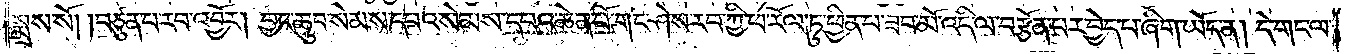སྨྲས་སོ། །བཙུན་པ་རབ་འབྱོར། བྱང་ཆུབ་སེམས་དཔའ་སེམས་དཔའ་ཆེན་པོ་གང་ཤེས་རབ་ཀྱི་ཕ་རོལ་ཏུ་ཕྱིན་པ་ཟབ་མོ་འདི་ལ་བརྩོན་པར་བྱེད་པ་ཞིག་ཡོད་ན། དེ་གང་ལ་
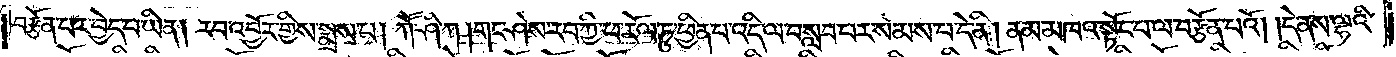བརྩོན་པར་བྱེད་པ་ཡིན། རབ་འབྱོར་གྱིས་སྨྲས་པ། ཀཽ་ཤི་ཀ། གང་ཤེས་རབ་ཀྱི་ཕ་རོལ་ཏུ་ཕྱིན་པ་འདི་ལ་བསླབ་པར་སེམས་པ་དེ་ནི། ནམ་མཁའ་སྟོང་པ་ལ་བརྩོན་པའོ། །དེ་ནས་ལྷའི་
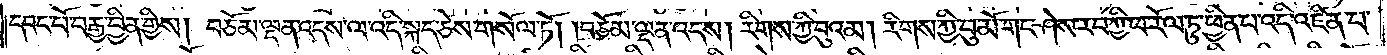དབང་པོ་བརྒྱ་བྱིན་གྱིས། བཅོམ་ལྡན་འདས་ལ་འདི་སྐད་ཅེས་གསོལ་ཏོ། །བཅོམ་ལྡན་འདས། རིགས་ཀྱི་བུའམ། རིགས་ཀྱི་བུ་མོ་གང་ཤེས་རབ་ཀྱི་ཕ་རོལ་ཏུ་ཕྱིན་པ་འདི་འཛིན་པ་
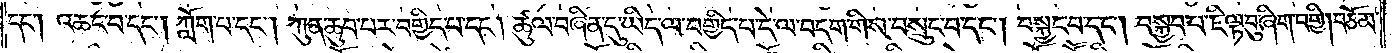དང༌། འཆང་བ་དང༌། ཀློག་པ་དང༌། ཀུན་ཆུབ་པར་བགྱིད་པ་དང༌། ཚུལ་བཞིན་དུ་ཡིད་ལ་བགྱིད་པ་དེ་ལ་བདག་གིས་བསྲུང་བ་དང༌། བསྐྱང་བ་དང༌། བསྐྱབ་པ་ཇི་ལྟ་བུ་ཞིག་བགྱི། བཅོམ་
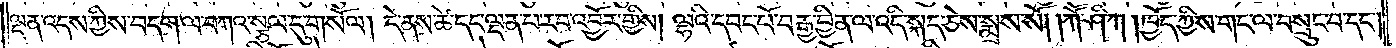ལྡན་འདས་ཀྱིས་བདག་ལ་བཀའ་སྩལ་དུ་གསོལ། དེ་ནས་ཚེ་དང་ལྡན་པ་རབ་འབྱོར་གྱིས། ལྷའི་དབང་པོ་བརྒྱ་བྱིན་ལ་འདི་སྐད་ཅེས་སྨྲས་སོ། །ཀཽ་ཤི་ཀ། ཁྱོད་ཀྱིས་གང་ལ་བསྲུང་བ་དང༌།
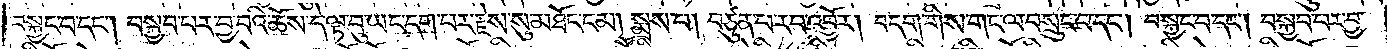བསྐྱང་བ་དང༌། བསྐྱབ་པར་བྱ་བའི་ཆོས་དེ་ལྟ་བུ་ཡང་དག་པར་རྗེས་སུ་མཐོང་ངམ། སྨྲས་པ། བཙུན་པ་རབ་འབྱོར། བདག་གིས་གང་ལ་བསྲུང་བ་དང༌། བསྐྱང་བ་དང༌། བསྐྱབ་པར་བྱ་
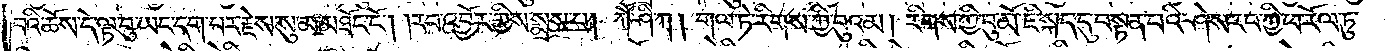བའི་ཆོས་དེ་ལྟ་བུ་ཡང་དག་པར་རྗེས་སུ་མ་མཐོང་ངོ༌། །རབ་འབྱོར་གྱིས་སྨྲས་པ། ཀཽ་ཤི་ཀ། གལ་ཏེ་རིགས་ཀྱི་བུའམ། རིགས་ཀྱི་བུ་མོ་ཇི་སྐད་དུ་བསྟན་པའི་ཤེས་རབ་ཀྱི་ཕ་རོལ་ཏུ་
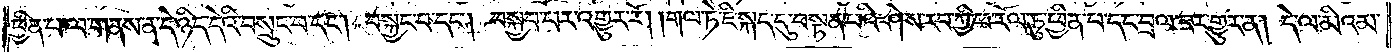ཕྱིན་པ་ལ་གནས་ན་དེ་ཉིད་དེའི་བསྲུང་བ་དང༌། བསྐྱང་བ་དང༌། བསྐྱབ་པར་འགྱུར་རོ། །གལ་ཏེ་ཇི་སྐད་དུ་བསྟན་པའི་ཤེས་རབ་ཀྱི་ཕ་རོལ་ཏུ་ཕྱིན་པ་དང་བྲལ་བར་གྱུར་ན། དེ་ལ་མིའམ་
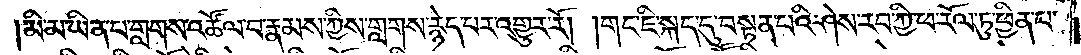མི་མ་ཡིན་པ་གླགས་འཚོལ་བ་རྣམས་ཀྱིས་གླགས་རྙེད་པར་འགྱུར་རོ། །གང་ཇི་སྐད་དུ་བསྟན་པའི་ཤེས་རབ་ཀྱི་ཕ་རོལ་ཏུ་ཕྱིན་པ་
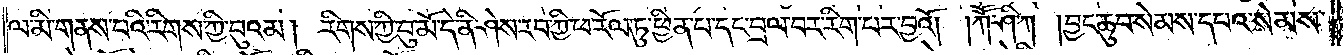ལ་མི་གནས་པའི་རིགས་ཀྱི་བུའམ། རིགས་ཀྱི་བུ་མོ་དེ་ནི་ཤེས་རབ་ཀྱི་ཕ་རོལ་ཏུ་ཕྱིན་པ་དང་བྲལ་བར་རིག་པར་བྱའོ། །ཀཽ་ཤི་ཀ། བྱང་ཆུབ་སེམས་དཔའ་སེམས་
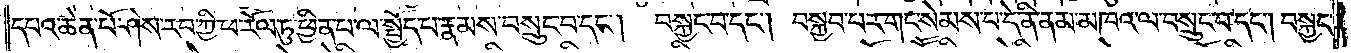དཔའ་ཆེན་པོ་ཤེས་རབ་ཀྱི་ཕ་རོལ་ཏུ་ཕྱིན་པ་ལ་སྤྱོད་པ་རྣམས་བསྲུང་བ་དང༌། བསྐྱང་བ་དང༌། བསྐྱབ་པར་གང་སེམས་པ་དེ་ནི་ནམ་མཁའ་ལ་བསྲུང་བ་དང༌། བསྐྱང་
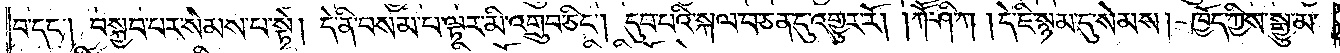བ་དང༌། བསྐྱབ་པར་སེམས་པ་སྟེ། དེ་ནི་བསམ་པ་ལྟར་མི་འགྲུབ་ཅིང༌། དུབ་པའི་སྐལ་བ་ཅན་དུ་འགྱུར་རོ། །ཀཽ་ཤི་ཀ། དེ་ཇི་སྙམ་དུ་སེམས། ཁྱོད་ཀྱིས་སྒྱུ་མ་
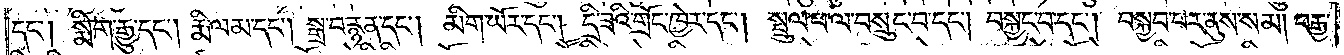དང༌། སྨིག་རྒྱུ་དང༌། རྨི་ལམ་དང༌། སྒྲ་བརྙན་དང༌། མིག་ཡོར་དང༌། དྲི་ཟའི་གྲོང་ཁྱེར་དང་། སྤྲུལ་པ་ལ་བསྲུང་བ་དང༌། བསྐྱང་བ་དང༌། བསྐྱབ་པར་ནུས་སམ། བརྒྱ་
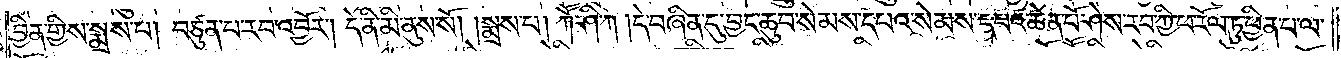བྱིན་གྱིས་སྨྲས་པ། བཙུན་པ་རབ་འབྱོར། དེ་ནི་མི་ནུས་སོ། །སྨྲས་པ། ཀཽ་ཤི་ཀ། དེ་བཞིན་དུ་བྱང་ཆུབ་སེམས་དཔའ་སེམས་དཔའ་ཆེན་པོ་ཤེས་རབ་ཀྱི་ཕ་རོལ་ཏུ་ཕྱིན་པ་ལ་
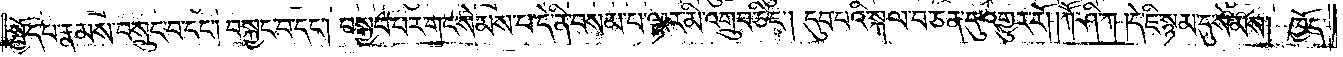སྤྱོད་པ་རྣམས་བསྲུང་བ་དང༌། བསྐྱང་བ་དང༌། བསྐྱབ་པར་གང་སེམས་པ་དེ་ནི་བསམ་པ་ལྟར་མི་འགྲུབ་ཅིང༌། དུབ་པའི་སྐལ་པ་ཅན་དུ་འགྱུར་རོ། །ཀཽ་ཤི་ཀ། དེ་ཇི་སྙམ་དུ་སེམས། ཁྱོད་
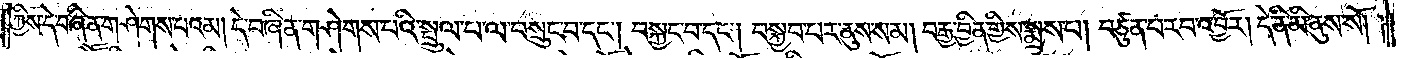ཀྱིས་དེ་བཞིན་གཤེགས་པའམ། དེ་བཞིན་གཤེགས་པའི་སྤྲུལ་པ་ལ་བསྲུང་བ་དང༌། བསྐྱང་བ་དང༌། བསྐྱབ་པར་ནུས་སམ། བརྒྱ་བྱིན་གྱིས་སྨྲས་པ། བཙུན་པ་རབ་འབྱོར། དེ་ནི་མི་ནུས་སོ། །
